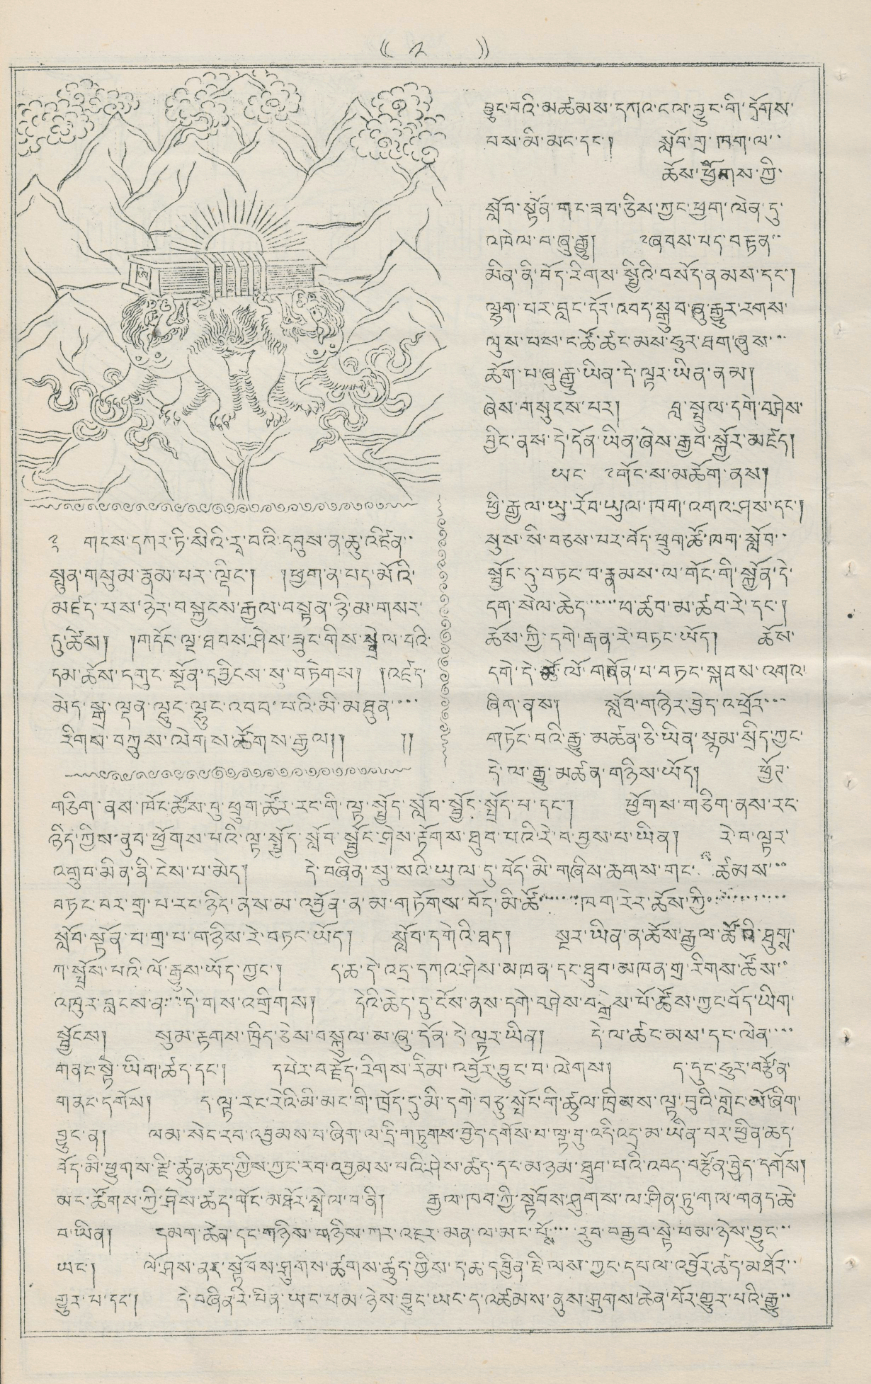(( ༢  ))
༣ གངས་དཀར་ཏི་སིའི་རྭ་བའི་དབུས་ན་ཆུ་འཛིན་་
སྤུན་གསུམ་རྣམ་པར་ལྡིང་། །ཕྱག་ན་པད་མོའི་
མཛད་པས་ཉེར་བསྐྱངས་རྒྱལ་བསྟན་ཉི་མ་གསར་
དུ་ཚེས། །གདོང་ལྔ་ཐབས་ཤེས་ཟུང་གིས་སྦྲེལ་བའི་
དམ་ཆོས་དགུང་སྔོན་དབྱིངས་སུ་བཏེགས། །འཛད་
མེད་སྒྲ་ལྡན་ལྷུང་ལྷུང་འབབ་པའི་མི་མཐུན་་་་
རིགས་བཀྲུས་ལེགས་ཚོགས་རྒྱལ།། །།
བྱུང་བའི་མཚམས་དཀའ་ངལ་བྱུང་གི་དྭོགས་
བས་མི་མང་དང་། སློབ་གྲྭ་ཁག་ལ་་
ཆོས་ཕྱོགས་ཀྱི་
སློབ་སྟོན་གང་ཟབ་ཅིས་ཀྱང་ཕྱག་ལེན་དུ་
འཁེལ་བ་ཞུ་རྒྱུ། ༸ཞབས་པད་བརྟན་་
མིན་ནི་བོད་རིགས་སྤྱིའི་བསོད་ནམས་དང་།
ལྷག་པར་བླང་དོར་འབད་སྒྲུབ་ཞུ་རྒྱུར་རགས་
ལུས་པས་ང་ཚོ་ཚང་མས་ཧུར་ཐག་ཞུས་་་
ཆོག་པ་ཞུ་རྒྱུ་ཡིན་དེ་ལྟར་ཡིན་ནམ།
ཞེས་གསུངས་པར། བླ་སྤྲུལ་དགེ་བཤེས་
བྱིང་ནས་དེ་དོན་ཡིན་ཞེས་རྒྱབ་སྐྱོར་མཛད།
ཡང་༸གོང་ས་མཆོག་ནས།
ཕྱི་རྒྱལ་ཡུ་རོབ་ཡུལ་ཁག་འགའ་ཤས་དང་།
སུས་སི་བཅས་པར་བོད་ཕྲུག་ཚོ་ཁག་སློབ་་
སྦྱོང་དུ་བཏང་བ་རྣམས་ལ་གོང་གི་སྐྱོན་དེ་
དག་སེལ་ཆེད་་་་་ཕ་ཚབ་མ་ཚབ་རེ་དང་།
ཆོས་ཀྱི་དགེ་རྒན་རེ་བཏང་ཡོད། ཆོས་
དགེ་དེ་ཚོ་ལོ་གཞོན་པ་བཏང་སྐབས་འགལ་
ཞིག་ནས། སློབ་གཉེར་བྱེད་འཕྲོར་་་
གཏོང་བའི་རྒྱུ་མཚན་ཅི་ཡིན་སྙམ་སྲིད་ཀྱང་།
དེ་ལ་རྒྱུ་མཚན་གཉིས་ཡོད། ཕྱོཊ་
གཅིག་ནས་ཁོང་ཚོས་བུ་ཕྲུག་ཚོར་རང་གི་ལྟ་སྤྱོད་སློབ་སྦྱོང་སྤྲོད་པ་དང་། ཕྱོགས་གཅིག་ནས་རང་
ཉིད་ཀྱིས་ནུབ་ཕྱོགས་པའི་ལྟ་སྤྱོད་སློབ་སྦྱང་ཤེས་རྟོགས་ཐུབ་པའི་རེ་བ་བྱས་པ་ཡིན། རེ་བ་ལྟར་
འགྲུབ་མིན་ནི་ངེས་པ་མེད། དེ་བཞིན་སུ་སའི་ཡུལ་དུ་བོད་མི་གཞིས་ཆགས་གང་ཚམས་་་
བཏང་བར་གྲ་པ་རང་ཉིད་ནས་མ་འབྱོན་ན་མ་གཏོགས་བོད་མི་ཚོ་་་་་་་ཁག་རེར་ཆོས་ཀྱི་་་་་་་་་་་་
སློབ་སྟོན་པ་གྲ་པ་གཉིས་རེ་བཏང་ཡོད། སློབ་དགེའི་ཐད། སྔར་ཡིན་ན་ཆོས་རྒྱལ་ཚོའི་ཐུགྶ་
ཀ་སྤྲོས་པའི་ལོ་རྒྱུས་ཡོད་ཀྱང་། ད་ཆ་དེ་འདྲ་དཀའ་ཤེས་མཁན་དང་ཐུབ་མཁན་གྲ་རིགས་ཆོས་་
འཁུར་བླངས་ན་་དི་གས་འགྲིགས། དེའི་ཆེད་དུ་ངོས་ནས་དགེ་བཤེས་བསྒྲེས་པོ་ཆོས་ཀྱང་བོད་ཡིག་
སྦྱོངས། སུམ་རྟགས་ཁྲིད་ཅེས་བསྐུལ་མ་ཞུ་དོན་དེ་ལྟར་ཡིན། དེ་ལ་ཚང་མས་དང་ལེན་་་་
གཞུང་སྟེ་ཡིག་ཚད་དང་། དཔེར་བརྗོད་རིགས་རིམ་འབྱོར་བྱུང་བ་ལེགས། ད་དུང་ཧུར་བརྩོན་
གནང་དགོས། ད ལྟ་རང་རེའི་མི་མང་གི་ཁྲོད་དུ་མི་དགེ་བཅུ་སྤོང་གི་ཚུལ་ཁྲིམས་ལྟ་བུའི་གླེང་མོ་ཞིག་
བྱུང་ན། ལམ་སེང་རབ་འབྱམས་པ་ཞིག་ལ་དྲི་གཏུགས་བྱེད་དགོས་པ་ལྟ་བུ་འདི་འང་མ་ཡིན་པར་ཕྱིན་ཆད་
བོད་མི་ཕྱུགས་རྫི་ཚུན་ཆད་ཀྱིས་ཀྱང་རབ་འབྱམས་པའི་ཤེས་ཚད་དང་མཉམ་ཐུབ་པའི་འབད་བརྩོན་བྱེད་དགོས།
མང་ཚོགས་ཀྱི་ཤེས་ཚད་གོང་མཐོར་སྤེལ་བ་ནི། རྒྱལ་ཁབ་ཀྱི་སྟོབས་ཤུགས་ལ་ཤིན་ཏུ་གལ་གནད་ཆེ་
བ་ཡིན། དམག་ཆེན་དང་གཉིས་གཉིས་ཀར་འཇར་མན་ལ་མང་པོས་་་་་རུབ་བརྒྱབ་སྟེ་ཕམ་ཉེས་བྱུང་་་
ཡང་། ལོ་ཤས་ནར་སྟོབས་ཤུགས་ཚགས་ཚུད་ཀྱིས་ད་ཆ་དབྱིན་ཇི་ལས་ཀྱང་དཔལ་འབྱོར་ཚད་མཐོར་་་
གྱུར་པ་དང་། དེ་བཞིན་རི་པིན་ཡང་ཕམ་ཉེས་བྱུང་ཡང་ད་འཚམས་ནུས་ཤུགས་ཆེན་པོར་གྱུར་པའི་རྒྱ་་
